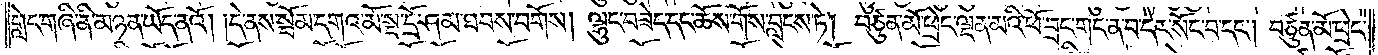གླེང་གཞི་ནི་མཉན་ཡོད་ནའོ། །དེ་ནས་སྦོམ་དགའ་མོ་སྔ་དྲོ་ཤམ་ཐབས་བགོས། ལྷུང་བཟེད་དང་ཆོས་གོས་བླངས་ཏེ། བཙུན་མོ་ཕྲེང་ལྡན་མའི་ཕོ་བྲང་གང་ན་བ་དེར་སོང་བ་དང༌། བཙུན་མོ་ཕྲེང་
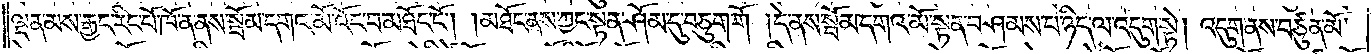ལྡན་མས་རྒྱང་རིང་པོ་ཁོ་ན་ནས་སྦོམ་དགའ་མོ་འོང་བ་མཐོང་ངོ༌། །མཐོང་ནས་ཀྱང་སྟན་ཤོམ་དུ་བཅུག་གོ །དེ་ནས་སྦོམ་དགའ་མོ་སྟན་བཤམས་པ་ཉིད་ལ་འདུག་སྟེ། འདུག་ནས་བཙུན་མོ་
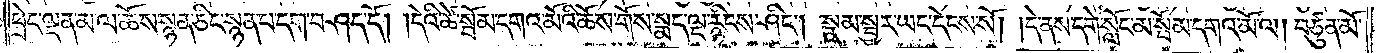ཕྲེང་ལྡན་མ་ལ་ཆོས་སྙན་ཅིང་སྙན་པ་དག་བཤད་དོ། །དེའི་ཚེ་སྦོམ་དགའ་མོའི་ཆོས་གོས་སྨད་ལྔ་རྙིངས་ཤིང༌། སྣམ་སྦྱར་ཡང་དེངས་སོ། །དེ་ནས་དགེ་སློང་མ་སྦོམ་དགའ་མོ་ལ། བཙུན་མོ་
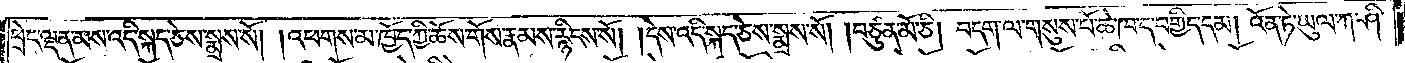ཕྲེང་ལྡན་མས་འདི་སྐད་ཅེས་སྨྲས་སོ། །འཕགས་མ་ཁྱོད་ཀྱི་ཆོས་གོས་རྣམས་རྙིངས་སོ། །དེས་འདི་སྐད་ཅེས་སྨྲས་སོ། །བཙུན་མོ་ཅི། བདག་ལ་གསུས་པོ་ཆེ་ཁ་ད་བགྱིད་དམ། འོན་ཏེ་ཡུལ་ཀ་ཤི་
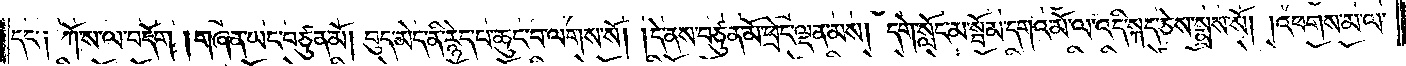དང་༑ ཀོ་ས་ལ་བདོག །གཞན་ཡང་བཙུན་མོ། །བུད་མེད་ནི་རྙེད་པ་ཆུང་བ་ལགས་སོ། །དེ་ནས་བཙུན་མོ་ཕྲེང་ལྡན་མས། དགེ་སློང་མ་སྦོམ་དགའ་མོ་ལ་འདི་སྐད་ཅེས་སྨྲས་སོ། །འཕགས་མ་ལ་
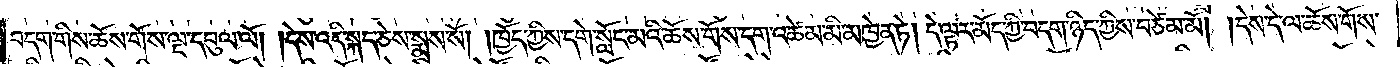བདག་གིས་ཆོས་གོས་ལྔ་དབུལ་ལོ། །དེས་འདི་སྐད་ཅེས་སྨྲས་སོ། །ཁྱོད་ཀྱིས་དགེ་སློང་མའི་ཆོས་གོས་དག་འཚེམ་མི་མཁྱེན་ཏེ། དེ་ལྟར་མོད་ཀྱི་བདག་ཉིད་ཀྱིས་བཙེམ་མོ། །དེས་དེ་ལ་ཆོས་གོས་
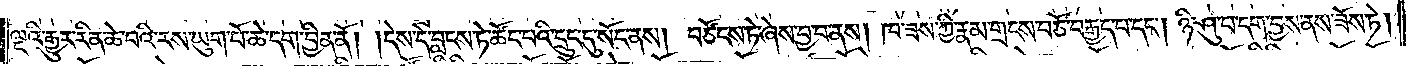ལྔའི་རྒྱུར་རིན་ཆེ་བའི་རས་ཡུག་པོ་ཆེ་དག་བྱིན་ནོ། །དེས་དེ་བླངས་ཏེ་ཚོང་བའི་དྲུང་དུ་སོང་ནས། བཙོངས་ཏེ་ཞེས་བྱ་བ་ནས། ཁ་ཟས་ཀྱི་རྣམ་གྲངས་བཅོ་བརྒྱད་པ་དང༌། ཉི་ཤུ་པ་དག་བྱས་ནས་ཟོས་ཏེ།
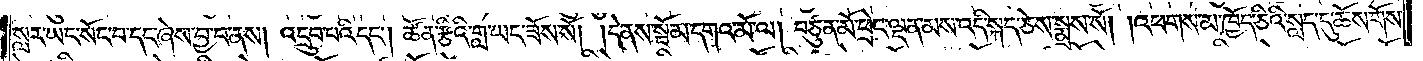སླར་ཡང་སོང་བ་དང་ཞེས་བྱ་བ་ནས། འདྲུབ་པའི་དང༌། ཚོན་རྩིའི་གླ་ཡང་ཟོས་སོ། །དེ་ནས་སྦོམ་དགའ་མོ་ལ། བཙུན་མོ་ཕྲེང་ལྡན་མས་འདི་སྐད་ཅེས་སྨྲས་སོ། །འཕགས་མ་ཁྱོད་ཅིའི་སླད་དུ་ཆོས་གོས་
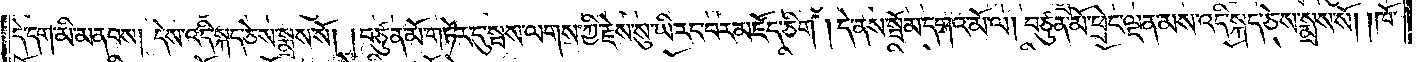དེ་དག་མི་མནབས། དེས་འདི་སྐད་ཅེས་སྨྲས་སོ། །བཙུན་མོ་གཏེར་དུ་སྦས་ལགས་ཀྱི་རྗེས་སུ་ཡི་རང་བར་མཛོད་ཅིག །དེ་ནས་སྦོམ་དགའ་མོ་ལ། བཙུན་མོ་ཕྲེང་ལྡན་མས་འདི་སྐད་ཅེས་སྨྲས་སོ། །ཁོ་
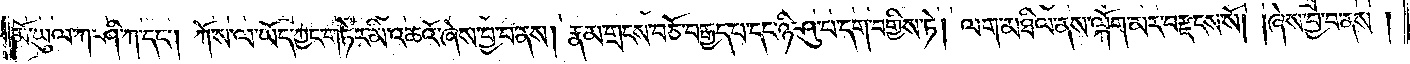མོ་ཡུལ་ཀ་ཤི་ཀ་དང༌། ཀོ་ས་ལ་ཡོད་ཀྱང་གཏེར་མི་འཆའོ་ཞེས་བྱ་བ་ནས། རྣམ་གྲངས་བཅོ་བརྒྱད་པ་དང་ཉི་ཤུ་པ་དག་བགྱིས་ཏེ། ལག་མཐིལ་ནས་ལྐོག་མར་བརྫངས་སོ། །ཞེས་བྱ་བ་ནས།
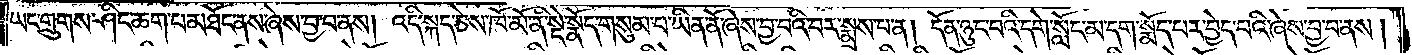ཡང་གྲུགས་ཤིང་ཆག་པ་མཐོང་ནས་ཞེས་བྱ་བ་ནས། འདི་སྐད་ཅེས་ཁོ་མོ་ནི་སྡེ་སྣོད་གསུམ་པ་ཡིན་ནོ་ཞེས་བྱ་བའི་བར་སྨྲས་པ་ན། དོན་ཉུང་བའི་དགེ་སློང་མ་དག་སྨོད་པར་བྱེད་པའི་ཞེས་བྱ་བ་ནས།
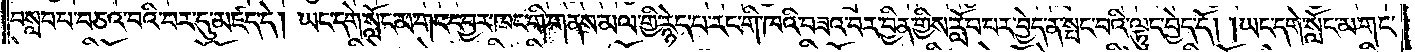བསླབ་པ་བཅའ་བའི་བར་དུ་མཛད་དེ། ཡང་དགེ་སློང་མ་གང་དབྱར་ཁང་གི་གནས་མལ་གྱི་རྙེད་པ་རང་གི་ཁའི་བཟའ་བར་བྱིན་གྱིས་རློབ་པར་བྱེད་ན་སྤང་བའི་ལྟུང་བྱེད་དོ། །ཡང་དགེ་སློང་མ་གང་
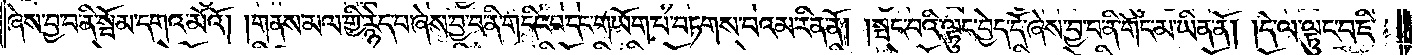ཞེས་བྱ་བ་ནི་སྦོམ་དགའ་མོའོ། །གནས་མལ་གྱི་རྙེད་པ་ཞེས་བྱ་བ་ནི་གདིང་བ་དང་གཡོག་པ་བཏགས་བའམ་རིན་ནོ། །སྤང་བའི་ལྟུང་བྱེད་དོ་ཞེས་བྱ་བ་ནི་གོང་མ་ཡིན་ནོ། །དེ་ལ་ལྟུང་བ་ཇི་
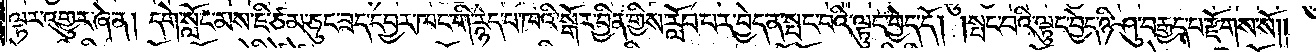ལྟར་འགྱུར་ཞེ་ན། དགེ་སློང་མས་ཇི་ཙམ་ཅུང་ཟད་དབྱར་ཁང་གི་རྙེད་པ་ཁའི་སྒོར་བྱིན་གྱིས་རློབ་པར་བྱེད་ན་སྤང་བའི་ལྟུང་བྱེད་དོ། །སྤང་བའི་ལྟུང་བྱེད་ཉི་ཤུ་བརྒྱད་པ་རྫོགས་སོ༎
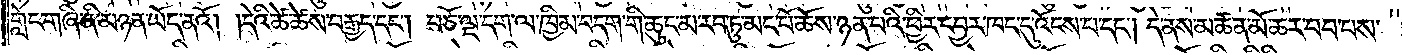གླེང་གཞི་ནི་མཉན་ཡོད་ནའོ། །དེའི་ཚེ་ཚེས་བརྒྱད་དང༌། བཅོ་ལྔ་དག་ལ་ཁྱིམ་བདག་གི་ཆུང་མ་རབ་ཏུ་མང་པོ་ཆོས་ཉན་པའི་ཕྱིར་དབྱར་ཁང་དུ་འོངས་པ་དང༌། དེ་ནས་མཚན་མོ་ཆར་བབ་པས་
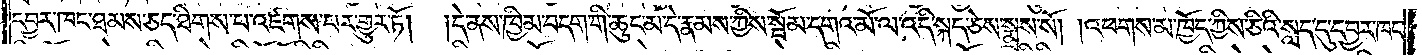དབྱར་ཁང་ཐམས་ཅད་ཐིགས་པ་འཛགས་པར་གྱུར་ཏོ། །དེ་ནས་ཁྱིམ་བདག་གི་ཆུང་མ་དེ་རྣམས་ཀྱིས་སྦོམ་དགའ་མོ་ལ་འདི་སྐད་ཅེས་སྨྲས་སོ། །འཕགས་མ་ཁྱོད་ཀྱིས་ཅིའི་སླད་དུ་དབྱར་ཁང་
